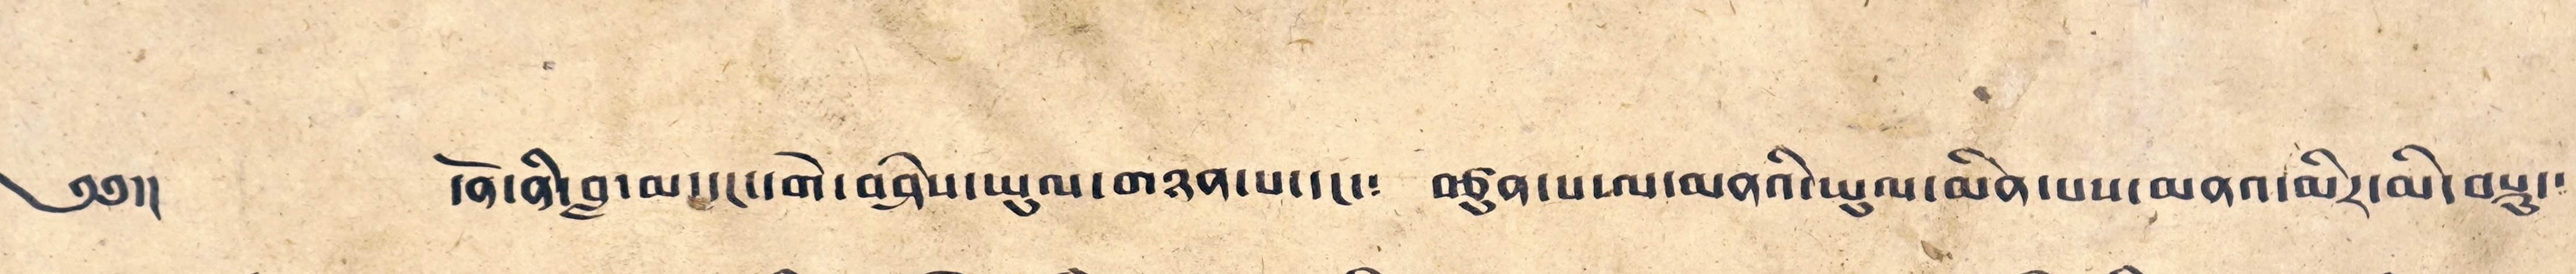༄༅།། དོན་ནི་བླ་མ་དང་དགེ་བཤེས་ཡུལ་གཉན་པ་དང་༴ བཙུན་པ་ལ་མནའི་ཡུལ་མིན་པས་མནའ་མིར་མི་བསྡུ་༴
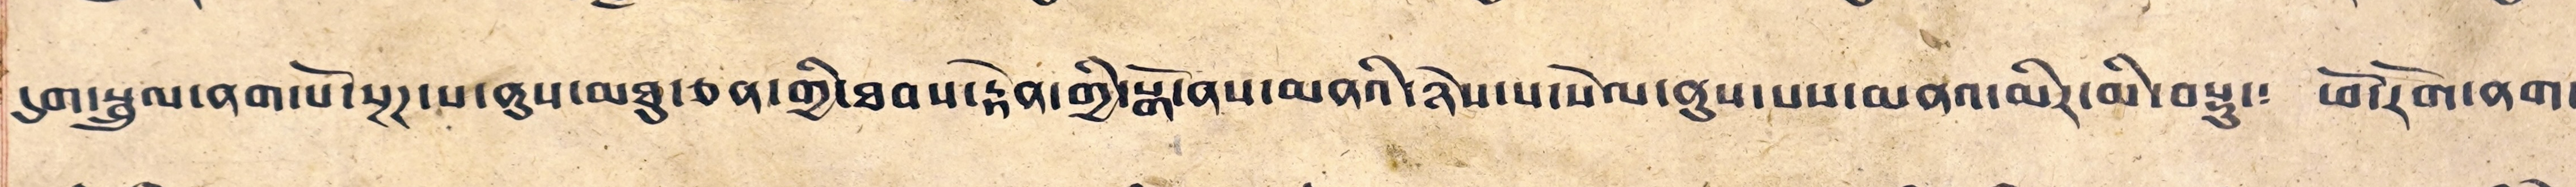དུག་སྦྲུལ་ནག་པོ་སྔཊ་པ་ནུས་མཐུ་ཅན་གྱི་ཐབས་རྟེན་གྱི་སྒོ་ནས་མནའི་ཉེས་པ་སེལ་ནུས་པས་མནའ་མིར་མི་བསྡུ་༴ ཕོ་རོག་ནག་
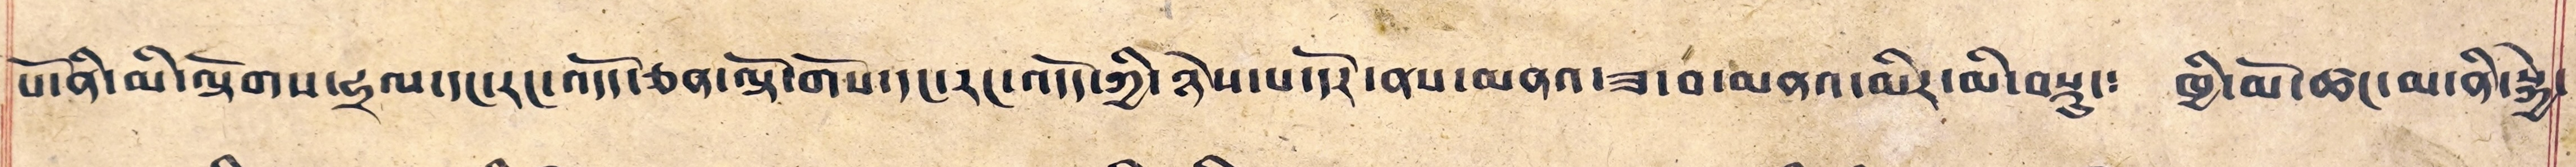པོ་ནི་མི་ལྟོགས་ཧྲལ་དང་རང་འདོད་ཅན་ལྟོ་གོས་དང་རང་འདོད་ཀྱི་ཉེས་པ་དོར་ནས་མནའ་ཟ་བ་མནའ་མིར་མི་བསྡུ་༴ ཁྱི་མོ་ཚང་མ་ནི་སྐྱེ་
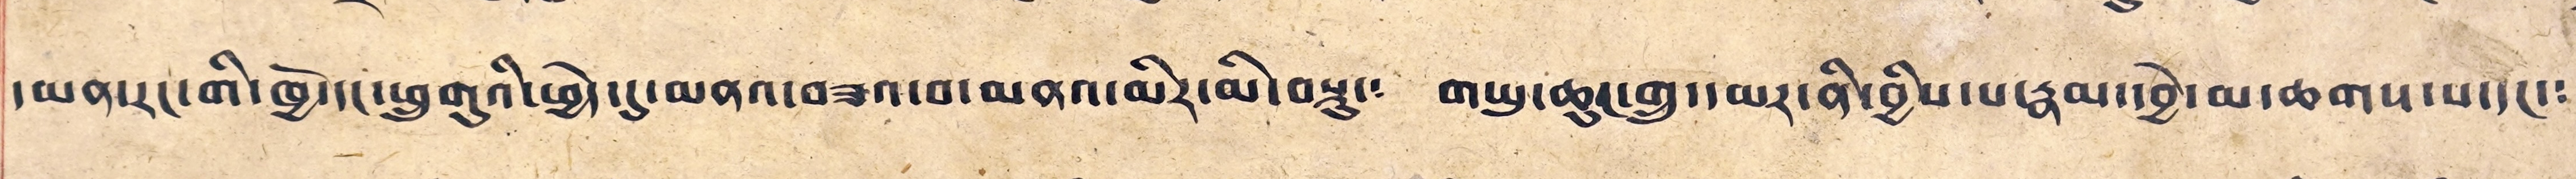དམན་རང་གི་ཁྱོ་དང་ཕྲུ་གུའི་ཕྱེད་དུ་མནའ་བཟའ་བ་མནའ་མིར་མི་བསྡུ་༴ གཡུ་ཆུང་གྲུ་དམར་ནི་བྱིས་པ་རྣམ་དབྱེ་མ་ཆགས་པ་དང་༴
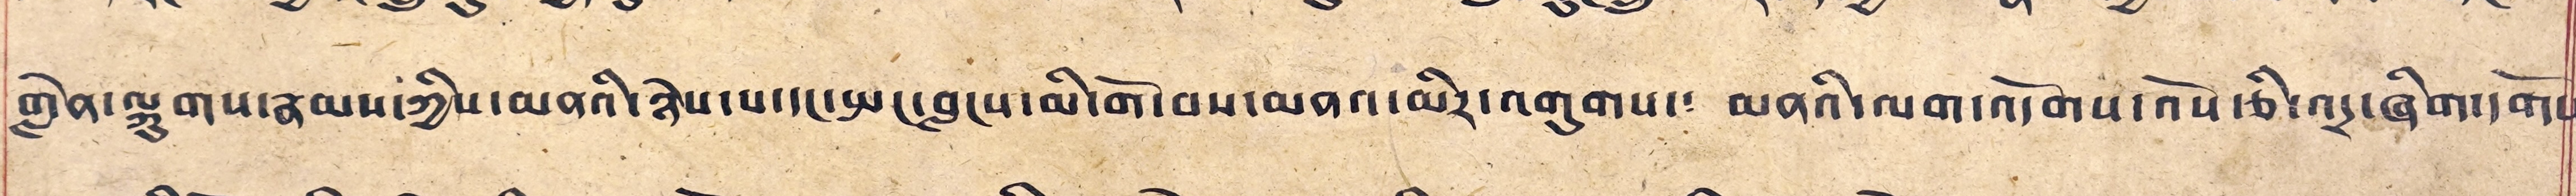གླེན་ལྐུགས་རྣམས་ཀྱིས་མནའི་ཉེས་པ་དང་སྤང་བླངས་མི་གོ་བས་མནའ་མིར་འགུགས་༴ མནའི་ལག་འདོགས་འོས་ཅི་འདྲ་ཞིག་དགོས༴
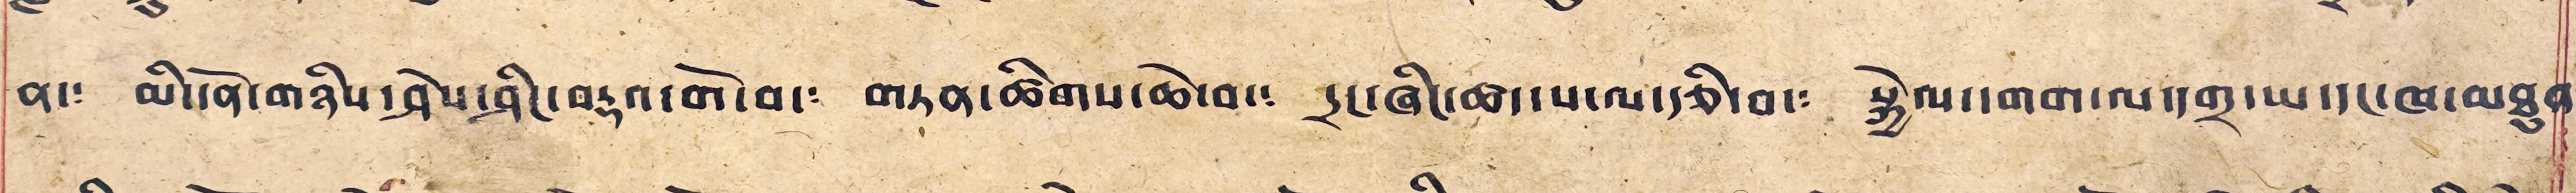ན་། མི་དོན་གཉིས་ཤེས་ཤིང་བརྡའ་གོ་བ་༴ གཏན་ཚིགས་ཆེ་བ་། དྲང་ཞིང་ཚད་པ་ལ་རྩི་བ་༴ སྐྱེལ་དགག་ལ་དགྲ་ཡ་དང་ཁ་མཐུན༴
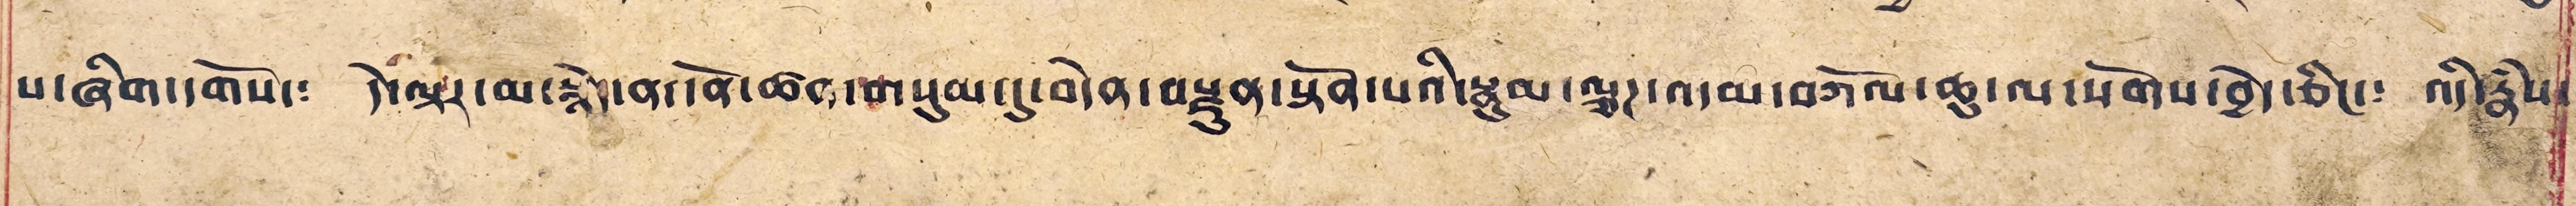པ་ཞིག་དགོས་༴ དེ་ལྟར་མ་སྙེད་ན་དོན་ཚན་གསུམ་དུ་བདེན་བརྫུན་སྟོན་པའི་སྣུམ་ལྕཊ་འདམ་བཀོལ་ཆུ་ལ་སོགས་བྱེད་ཅིང་༴ འདི་རྣཾས་
